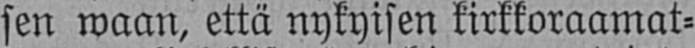sen waan, että nykyisen kirkkoraamat-
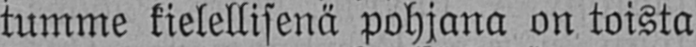tumme kielellisenä pohjana on toista
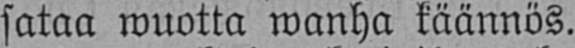sataa wuotta wanha käännös.
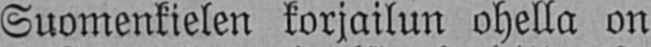Suomenkielen korjailun ohella on
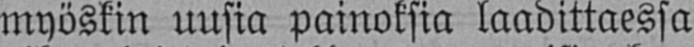myöskin uusia painoksia laadittaessa
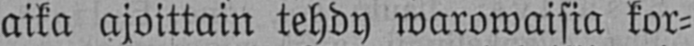aika ajoittain tehdy warowaisia kor-
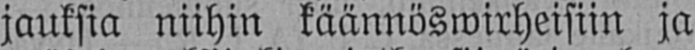jauksia niihin käännöswirheisiin ja
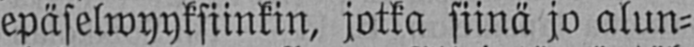epäselwyyksiinkin, jotka siinä jo alun-
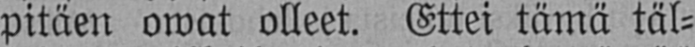pitäen owat olleet. Ettei tämä täl-
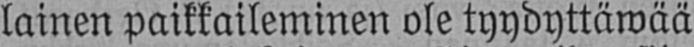lainen paikkaileminen ole tyydyttäwää
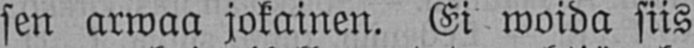sen arwaa jokainen. Ei woida siis
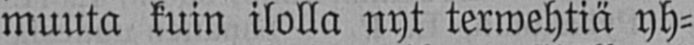muuta kuin ilolla nyt terwehtiä yh-
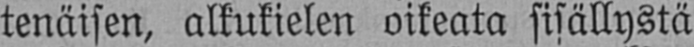tenäisen, alkukielen oikeata sisällystä
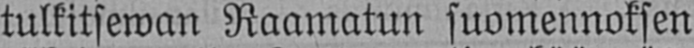tulkitsewan Raamatun suomennoksen
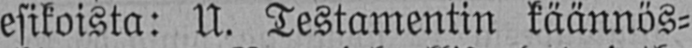esikoista: U. Testamentin käännös-
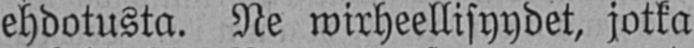ehdotusta. Ne wirheellisyydet, jotka
